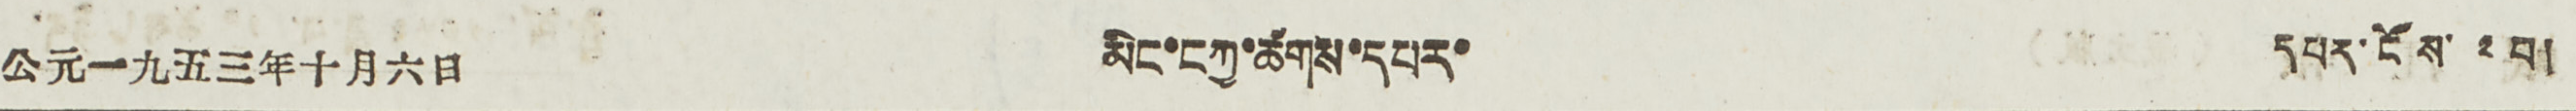公元一九五三年十月六日 མིང་ངཀྱ་ཚགས་དཔར་ དཔར་ངོས་ ༢བ།
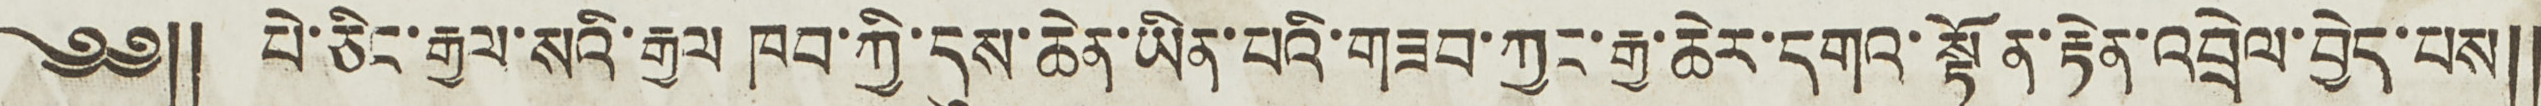༄༅༎ པེ་ཅིང་རྒྱལ་སའི་རྒྱལ ཁབ་ཀྱི་དུས་ཆེན་ཡིན་པའི་གཟབ་ཀྱང་རྒྱ་ཆེར་དགའ་སྟོན་རྟེན་འབྲེལ་བྱེད་པས༎
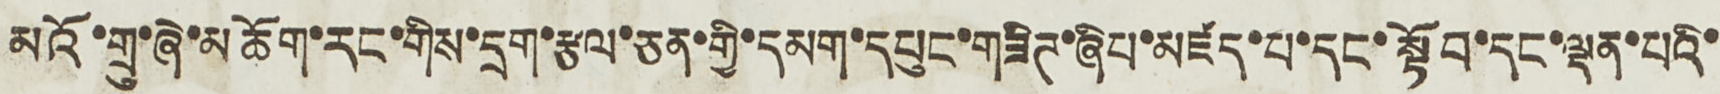མའོ་གྲུ་ཞེ་མཆོག་རང་གིས་དྲག་རྩལ་ཅན་གྱི་དམག་དཔུང་གཟིཊ་ཞིབ་མཛད་པ་དང་སྟོབ་དང་ལྡན་པའི་
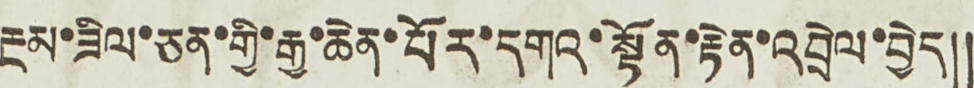རྔམ་ཟིལ་ཅན་གྱི་རྒྱ་ཆེན་པོར་དགའ་སྟོན་རྟེན་འབྲེལ་བྱེད༎
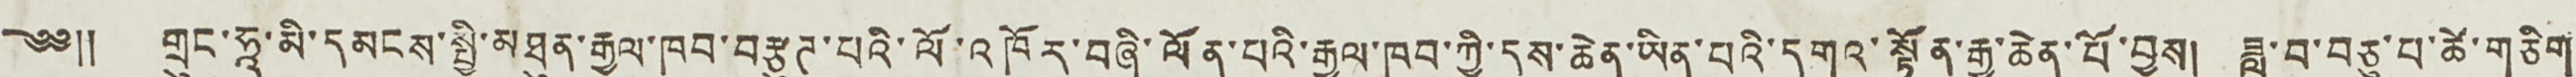༄༅༎ གྲུང་ཧཱ་མི་དམངས་སྤྱི་མཐུན་རྒྱལ་ཁབ་བརྩུཊ་པའི་ལོ་འཁོར་བཞི་ལོན་པའི་རྒྱལ་ཁབ་ཀྱི་དུས་ཆེན་ཡིན་པའི་དགའ་སྟོན་རྒྱ་ཆེན་པོ་བྱས། ཟླ་བ་བཅུ་པ་ཚེ་གཅིག
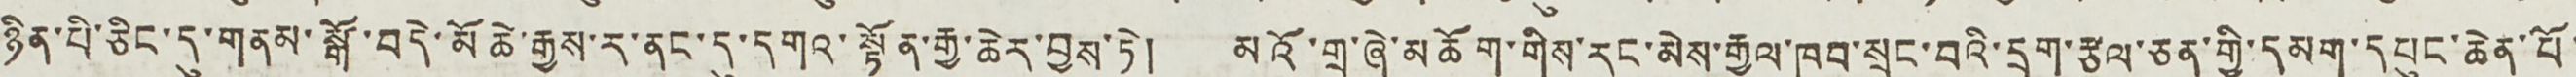ཉིན་པི་ཅིང་དུ་གནམ་སྒོ་བདེ་མོ ཆེ་རྒྱས་ར་ནང་དུ་དགའ་སྟོན་རྒྱ་ཆེར་བྱས་ཏེ། མའོ་གྲུ་ཞེ་མཆོག་གིས་རང་མེས་རྒྱལ་ཁབ་སྲུང་བའི་དྲག་རྩལ་ཅན་གྱི་དམག་དཔུང་ཆེན་པོ་
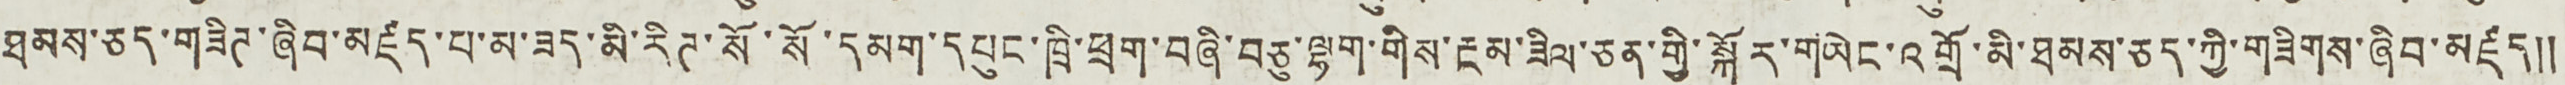ཐམས་ཅད་གཟིཊ་ཞིབ་མཛད་པ་མ་ཟད་མི་རིཊ་སོ་སོ་དམག་དཔུང་ཁྲི་ཕྲག་བཞི་བཅུ་ལྷག་གིས་རྔམ་ཟིལ་ཅན་གྱི་སྐོར་གཡེང་འགྲོ་མི་ཐམས་ཅད་ཀྱི་གཟིགས་ཞིབ་མཛད༎
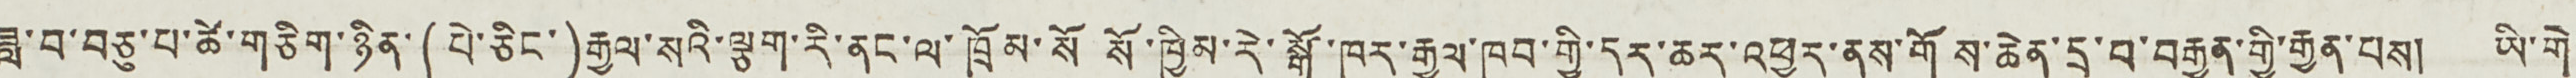ཟླ་བ་བཅུ་པ་ཚེ་གཅིག་ཉིན་(པེ་ཅིང་)རྒྱལ་སའི་ལྕག་རི་ནང་ལ་ཁྲོམ་སོ སོ་ཁྱིམ་རེ་སྒོ་ཁར་རྒྱལ་ཁབ་གྱི་དར་ཆར་འཕྱར་ནས་གོས་ཆེན་དྲ་བ་བརྒྱན་གྱི་རྒྱན་པས། ཡི་གེ་
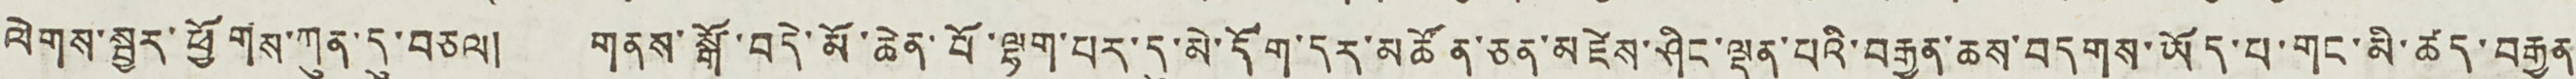ལེགས་སྦྱར་ཕྱོགས་ཀུན་དུ་བཅལ། གནས་སྒོ་བདེ་མོ་ཆེན་པོ་ལྷག་པར་དུ་མེ་དོག་དར་མཚོན་ཅན་མཛེས་ཤིང་ལྡན་པའི་བརྒྱན་ཆས་བདགས་ཡོད་པ་གང་མི་ཚད་བརྒྱན་
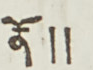ནོ༎
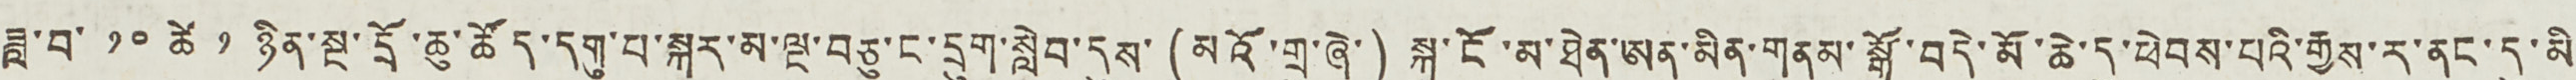ཟླ་བ་ ༡༠ ཚེ ༡ ཉིན་སྔ་དྲོ་ཆུ་ཚོད་དགུ་པ་སྐར་མ་ལྔ་བཅུ་ང་དྲུག་སླེབ་དུས་(མའོ་གྲུ་ཞེ་) སྐུ་ངོ་མ་ཐེན་ཨན་མིན་གནམ་སྒོ་བདེ་མོ་ཆེ་དུ་ཕེབས་པའི་རྒྱས་ར་ནང་དུ་མི་
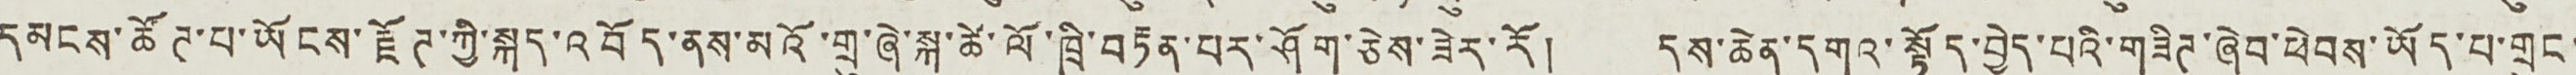དམངས་ཚོཊ་པ་ཡོངས་རྫོཊ་ཀྱི་སྐད་འབོད་ནས་མའོ་གྲུ་ཞེ་སྐུ་ཚེ་ལོ་ཁྲི་བརྟན་པར་ཤོག་ཅེས་ཟེར་རོ། དུས་ཆེན་དགའ་སྟོད་བྱེད་པའི་གཟིཊ་ཞེབ་ཕེབས་ཡོད་པ་གྲུང་
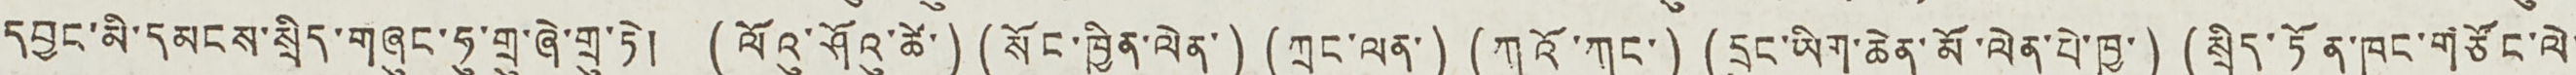དབྱང་མི་དམངས་སྲིད་གཞུང་ཧུ་གྲུ་ཞེ་གྲུ་ཏེ། (ལོའུ་ཤོའུ་ཚེ་) (སོང་ཁྱིན་ལེན་) (ཀྲང་ལན་) (ཀའོ་ཀང་) (ཀྲུང་ཡིག་ཆེན་མོ་ལེན་པེ་ཁྱུ་) (སྲིད་ཏོན་ཁང་གཙོང་ལེ་
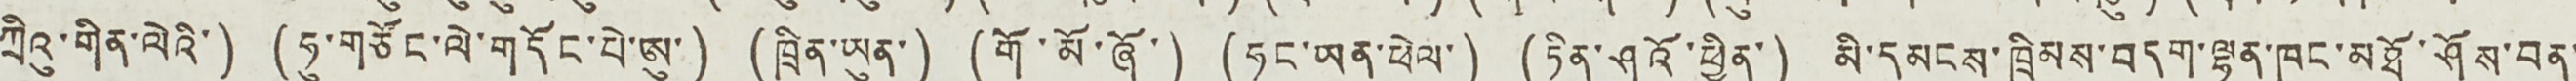ཀྲིའུ་གིན་ལེའི་) (ཧུ་གཙོང་ལེ་གདོང་པེ་ཨུ་) (ཁྲིན་ཡུན་) (གོ་མོ་ཞོ་) (ཧང་ཡན་ཕེལ་) (ཏིན་ཤའོ་ཕྱིན་) མི་དམངས་ཁྲིམས་བདག་ལྷན་ཁང་མཐོ་ཤོས་བན་
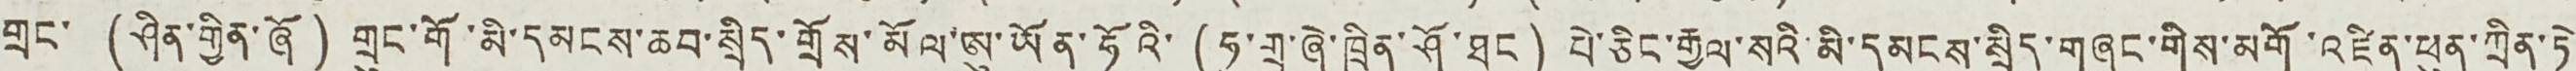གྲང་ (ཤིན་གྱིན་ཞོ) གྲུང་གོ་མི་དམངས་ཆབ་སྲིད་གྲོས་མོལ་ཨུ་ཡོན་ཧོའི་ (ཧུ་གྲུ་ཞེ་ཁྲིན་ཤོ་ཐུང) པེ་ཅིང་རྒྱལ་སའི་མི་དམངས་སྲིད་གཞུང་གིས་མགོ་འཛིན་ཕུན་ཀྲིན་ཏེ་
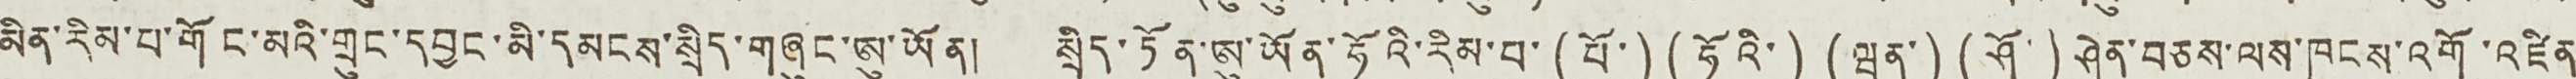མིན་རིམ་པ་གོང་མའི་གྲུང་དབྱང་མི་དམངས་སྲིད་གཞུང་ཨུ་ཡོན། སྲིད་ཏོན་ཨུ་ཡོན་ཧོའི་རིམ་པ་ (པོ་) (ཧོའི་) (ཝན་) (ཤོ་) ཤེན་བཅས་ལས་ཁུངས་འགོ་འཛིན་
